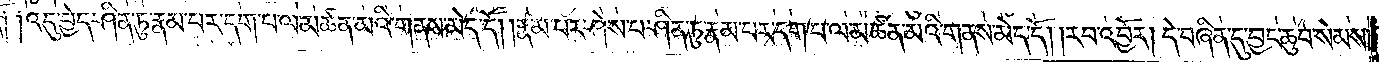དོ། །འདུ་བྱེད་ཤིན་ཏུ་རྣམ་པར་དག་པ་ལ་མཚན་མའི་གནས་མེད་དོ། །རྣམ་པར་ཤེས་པ་ཤིན་ཏུ་རྣམ་པར་དག་པ་ལ་མཚན་མའི་གནས་མེད་དོ། །རབ་འབྱོར། དེ་བཞིན་དུ་བྱང་ཆུབ་སེམས་དཔའ་སེམས་
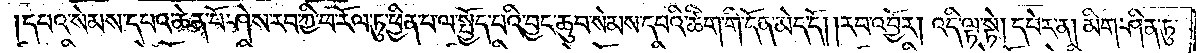དཔའ་ཆེན་པོ་ཤེས་རབ་ཀྱི་ཕ་རོལ་ཏུ་ཕྱིན་པ་ལ་སྤྱོད་པའི་བྱང་ཆུབ་སེམས་དཔའི་ཚིག་གི་དོན་མེད་དོ། །རབ་འབྱོར། འདི་ལྟ་སྟེ། དཔེར་ན། མིག་ཤིན་ཏུ་
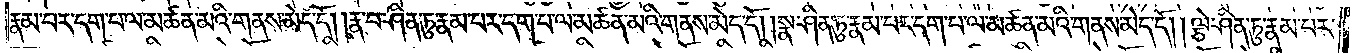རྣམ་པར་དག་པ་ལ་མཚན་མའི་གནས་མེད་དོ། །རྣ་བ་ཤིན་ཏུ་རྣམ་པར་དག་པ་ལ་མཚན་མའི་གནས་མེད་དོ། །སྣ་ཤིན་ཏུ་རྣམ་པར་དག་པ་ལ་མཚན་མའི་གནས་མེད་དོ། །ལྕེ་ཤིན་ཏུ་རྣམ་པར་
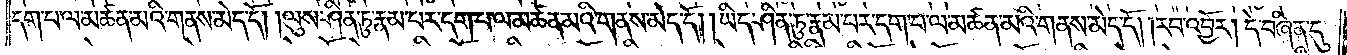དག་པ་ལ་མཚན་མའི་གནས་མེད་དོ། །ལུས་ཤིན་ཏུ་རྣམ་པར་དག་པ་ལ་མཚན་མའི་གནས་མེད་དོ། །ཡིད་ཤིན་ཏུ་རྣམ་པར་དག་པ་ལ་མཚན་མའི་གནས་མེད་དོ། །རབ་འབྱོར། དེ་བཞིན་དུ་
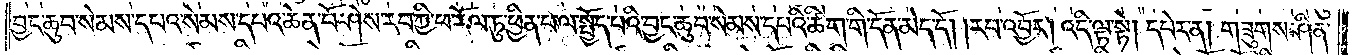བྱང་ཆུབ་སེམས་དཔའ་སེམས་དཔའ་ཆེན་པོ་ཤེས་རབ་ཀྱི་ཕ་རོལ་ཏུ་ཕྱིན་པ་ལ་སྤྱོད་པའི་བྱང་ཆུབ་སེམས་དཔའི་ཚིག་གི་དོན་མེད་དོ། །རབ་འབྱོར། འདི་ལྟ་སྟེ། དཔེར་ན། གཟུགས་ཤིན་
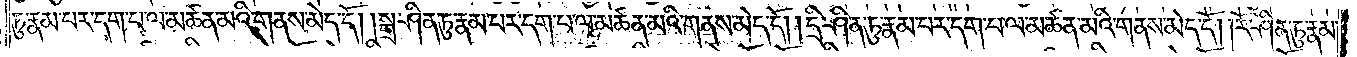ཏུ་རྣམ་པར་དག་པ་ལ་མཚན་མའི་གནས་མེད་དོ། །སྒྲ་ཤིན་ཏུ་རྣམ་པར་དག་པ་ལ་མཚན་མའི་གནས་མེད་དོ། །དྲི་ཤིན་ཏུ་རྣམ་པར་དག་པ་ལ་མཚན་མའི་གནས་མེད་དོ། །རོ་ཤིན་ཏུ་རྣམ་
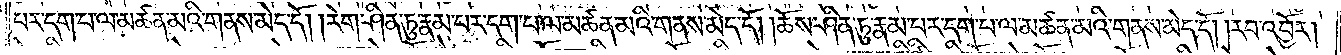པར་དག་པ་ལ་མཚན་མའི་གནས་མེད་དོ། །རེག་ཤིན་ཏུ་རྣམ་པར་དག་པ་ལ་མཚན་མའི་གནས་མེད་དོ། །ཆོས་ཤིན་ཏུ་རྣམ་པར་དག་པ་ལ་མཚན་མའི་གནས་མེད་དོ། །རབ་འབྱོར།
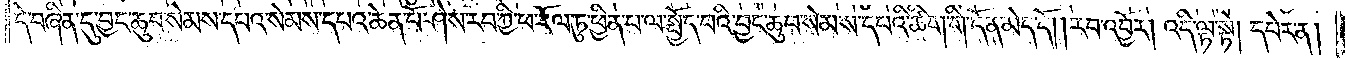དེ་བཞིན་དུ་བྱང་ཆུབ་སེམས་དཔའ་སེམས་དཔའ་ཆེན་པ་ཤེས་རབ་ཀྱི་ཕ་རོལ་ཏུ་ཕྱིན་པ་ལ་སྤྱོད་པའི་བྱང་ཆུབ་སེམས་དཔའི་ཚིག་གི་དོན་མེད་དོ། །རབ་འབྱོར། འདི་ལྟ་སྟེ། དཔེར་ན།
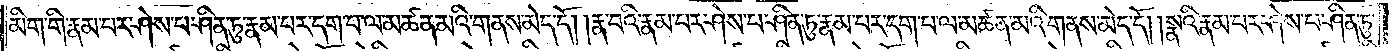མིག་གི་རྣམ་པར་ཤེས་པ་ཤིན་ཏུ་རྣམ་པར་དག་པ་ལ་མཚན་མའི་གནས་མེད་དོ། །རྣ་བའི་རྣམ་པར་ཤེས་པ་ཤིན་ཏུ་རྣམ་པར་དག་པ་ལ་མཚན་མའི་གནས་མེད་དོ། །སྣའི་རྣམ་པར་ཤེས་པ་ཤིན་ཏུ་
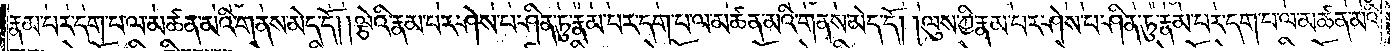རྣམ་པར་དག་པ་ལ་མཚན་མའི་གནས་མེད་དོ། །ལྕེའི་རྣམ་པར་ཤེས་པ་ཤིན་ཏུ་རྣམ་པར་དག་པ་ལ་མཚན་མའི་གནས་མེད་དོ། །ལུས་ཀྱི་རྣམ་པར་ཤེས་པ་ཤིན་ཏུ་རྣམ་པར་དག་པ་ལ་མཚན་མའི་
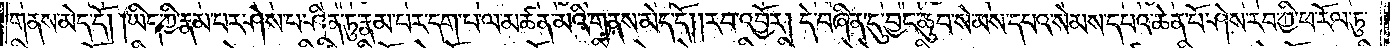གནས་མེད་དོ། །ཡིད་ཀྱི་རྣམ་པར་ཤེས་པ་ཤིན་ཏུ་རྣམ་པར་དག་པ་ལ་མཚན་མའི་གནས་མེད་དོ། །རབ་འབྱོར། དེ་བཞིན་དུ་བྱང་ཆུབ་སེམས་དཔའ་སེམས་དཔའ་ཆེན་པོ་ཤེས་རབ་ཀྱི་ཕ་རོལ་ཏུ་
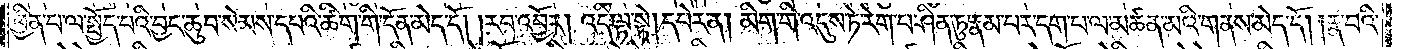ཕྱིན་པ་ལ་སྤྱོད་པའི་བྱང་ཆུབ་སེམས་དཔའི་ཚིག་གི་དོན་མེད་དོ། །རབ་འབྱོར། འདི་ལྟ་སྟེ། དཔེར་ན། མིག་གི་འདུས་ཏེ་རེག་པ་ཤིན་ཏུ་རྣམ་པར་དག་པ་ལ་མཚན་མའི་གནས་མེད་དོ། །རྣ་བའི་
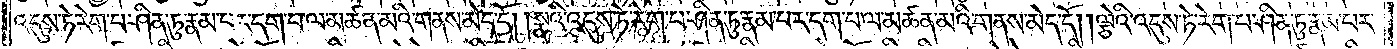འདུས་ཏེ་རེག་པ་ཤིན་ཏུ་རྣམ་པར་དག་པ་ལ་མཚན་མའི་གནས་མེད་དོ། །སྣའི་འདུས་ཏེ་རེག་པ་ཤིན་ཏུ་རྣམ་པར་དག་པ་ལ་མཚན་མའི་གནས་མེད་དོ། །ལྕེའི་འདུས་ཏེ་རེག་པ་ཤིན་ཏུ་རྣམ་པར་
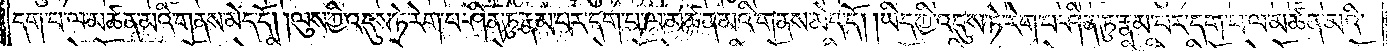དག་པ་ལ་མཚན་མའི་གནས་མེད་དོ། །ལུས་ཀྱི་འདུས་ཏེ་རེག་པ་ཤིན་ཏུ་རྣམ་པར་དག་པ་ལ་མཚན་མའི་གནས་མེད་དོ། །ཡིད་ཀྱི་འདུས་ཏེ་རེག་པ་ཤིན་ཏུ་རྣམ་པར་དག་པ་ལ་མཚན་མའི་
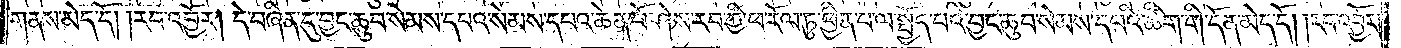གནས་མེད་དོ། །རབ་འབྱོར། དེ་བཞིན་དུ་བྱང་ཆུབ་སེམས་དཔའ་སེམས་དཔའ་ཆེན་པོ་ཤེས་རབ་ཀྱི་ཕ་རོལ་ཏུ་ཕྱིན་པ་ལ་སྤྱོད་པའི་བྱང་ཆུབ་སེམས་དཔའི་ཚིག་གི་དོན་མེད་དོ། །རབ་འབྱོར།
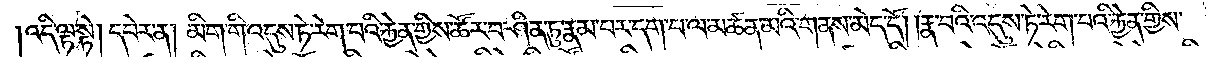།འདི་ལྟ་སྟེ། དཔེར་ན། མིག་གི་འདུས་ཏེ་རེག་པའི་རྐྱེན་གྱིས་ཚོར་བ་ཤིན་ཏུ་རྣམ་པར་དག་པ་ལ་མཚན་མའི་གནས་མེད་དོ། །རྣ་བའི་འདུས་ཏེ་རེག་པའི་རྐྱེན་གྱིས་
